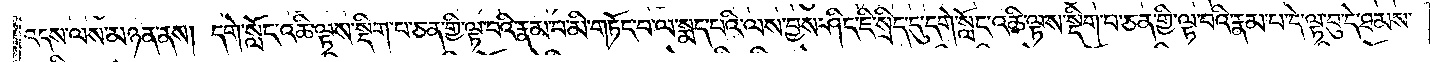འདས་ལས་མཉན་ནས། དགེ་སློང་འཆི་ལྟས་སྡིག་པ་ཅན་གྱི་ལྟ་བའི་རྣམ་པ་མི་གཏོང་བ་ལ་སྨད་པའི་ལས་བྱས་ཤིང་ཇི་སྲིད་དུ་དགེ་སློང་འཆི་ལྟས་སྡིག་པ་ཅན་གྱི་ལྟ་བའི་རྣམ་པ་དེ་ལྟ་བུ་དེ་ཐམས་
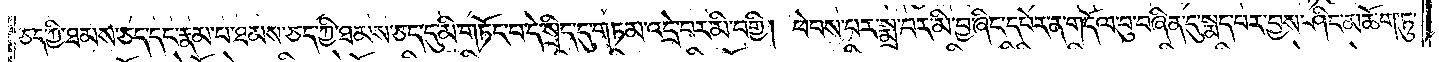ཅད་ཀྱི་ཐམས་ཅད་དང་རྣམ་པ་ཐམས་ཅད་ཀྱི་ཐམས་ཅད་དུ་མི་གཏོང་བ་དེ་སྲིད་དུ་གཏམ་འདྲེ་བར་མི་བགྱི། ཕེབས་པར་སྨྲ་བར་མི་བྱ་ཞིང་དཔེར་ན་གདོལ་བུ་བཞིན་དུ་སྨད་པར་བྱས་ཤིང་མཆོག་ཏུ་
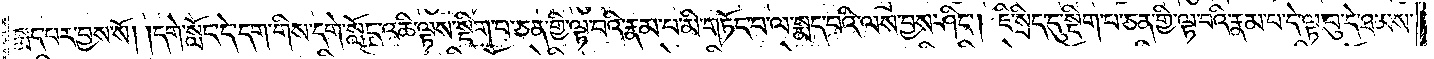སྨད་པར་བྱས་སོ། །དགེ་སློང་དེ་དག་གིས་དགེ་སློང་འཆི་ལྟས་སྡིག་པ་ཅན་གྱི་ལྟ་བའི་རྣམ་པ་མི་གཏོང་བ་ལ་སྨད་པའི་ལས་བྱས་ཤིང༌། ཇི་སྲིད་དུ་སྡིག་པ་ཅན་གྱི་ལྟ་བའི་རྣམ་པ་དེ་ལྟ་བུ་དེ་ཐམས་
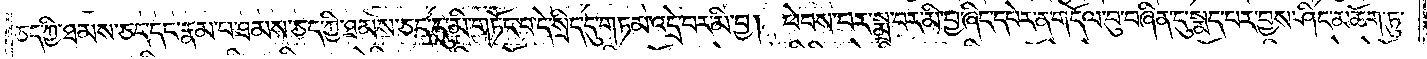ཅད་ཀྱི་ཐམས་ཅད་དང་རྣམ་པ་ཐམས་ཅད་ཀྱི་ཐམས་ཅད་དུ་མི་གཏོང་བ་དེ་སྲིད་དུ་གཏམ་འདྲེ་བར་མི་བྱ། ཕེབས་པར་སྨྲ་བར་མི་བྱ་ཞིང་དཔེར་ན་གདོལ་བུ་བཞིན་དུ་སྨད་པར་བྱས་ཤིང་མཆོག་ཏུ་
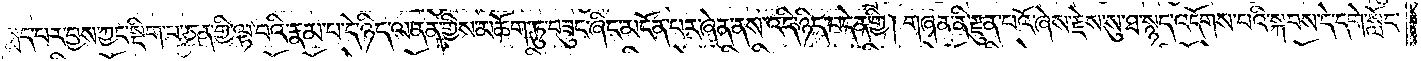སྨད་པར་བྱས་ཀྱང་སྡིག་པ་ཅན་གྱི་ལྟ་བའི་རྣམ་པ་དེ་ཉིད་ལ་ནན་གྱིས་མཆོག་ཏུ་བཟུང་ཞིང་མངོན་པར་ཞེན་ནས་འདི་ཉིད་བདེན་གྱི། གཞན་ནི་རྫུན་པའོ་ཞེས་རྗེས་སུ་ཐ་སྙད་འདོགས་པའི་སྐབས་དེ་དགེ་སློང་
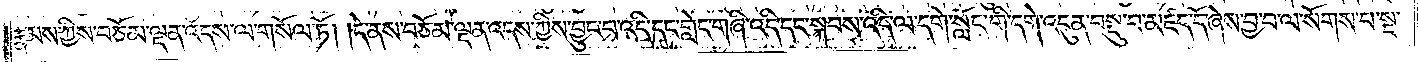རྣམས་ཀྱིས་བཅོམ་ལྡན་འདས་ལ་གསོལ་ཏོ། །དེ་ནས་བཅོམ་ལྡན་འདས་ཀྱིས་བྱུང་བ་འདི་དང་གླེང་གཞི་འདི་དང་སྐབས་འདི་ལ་དགེ་སློང་གི་དགེ་འདུན་བསྡུ་བ་མཛད་དོ་ཞེས་བྱ་བ་ལ་སོགས་པ་སྔ་
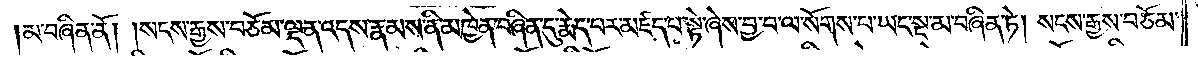མ་བཞིན་ནོ། །སངས་རྒྱས་བཅོམ་ལྡན་འདས་རྣམས་ནི་མཁྱེན་བཞིན་དུ་རྨེད་པར་མཛད་པ་སྟེ་ཞེས་བྱ་བ་ལ་སོགས་པ་ཡང་སྔ་མ་བཞིན་ཏེ། སངས་རྒྱས་བཅོམ་
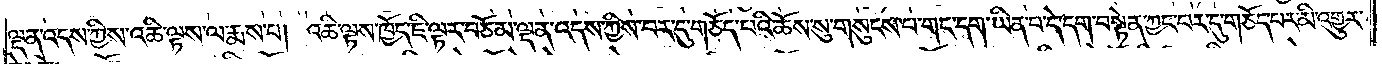ལྡན་འདས་ཀྱིས་འཆི་ལྟས་ལ་རྨས་པ། འཆི་ལྟས་ཁྱོད་ཇི་ལྟར་བཅོམ་ལྡན་འདས་ཀྱིས་བར་དུ་གཅོད་པའི་ཆོས་སུ་གསུངས་པ་གང་དག་ཡིན་པ་དེ་དག་བསྟེན་ཀྱང་བར་དུ་གཅོད་པར་མི་འགྱུར་
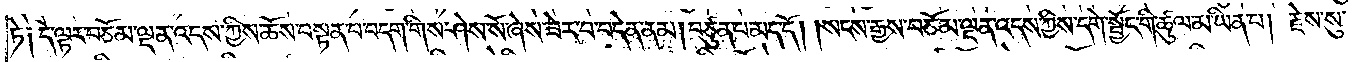ཏེ༑ དེ་ལྟར་བཅོམ་ལྡན་འདས་ཀྱིས་ཆོས་བསྟན་པ་བདག་གིས་ཤེས་སོ་ཞེས་ཟེར་བ་བདེན་ནམ། བཙུན་པ་མད་དོ། །སངས་རྒྱས་བཅོམ་ལྡན་འདས་ཀྱིས་དགེ་སྦྱོང་གི་ཚུལ་མ་ཡིན་པ། རྗེས་སུ་
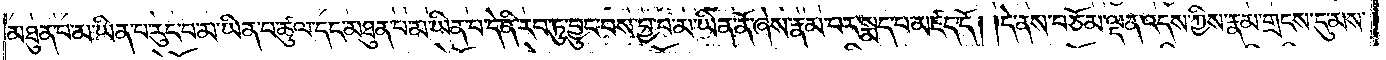མཐུན་པ་མ་ཡིན་པ་རུང་བ་མ་ཡིན་པ་ཚུལ་དང་མཐུན་པ་མ་ཡིན་པ་དེ་ནི་རབ་ཏུ་བྱུང་བས་བྱ་བ་མ་ཡིན་ནོ་ཞེས་རྣམ་པར་སྨད་པ་མཛད་དོ། །དེ་ནས་བཅོམ་ལྡན་འདས་ཀྱིས་རྣམ་གྲངས་དུ་མས་
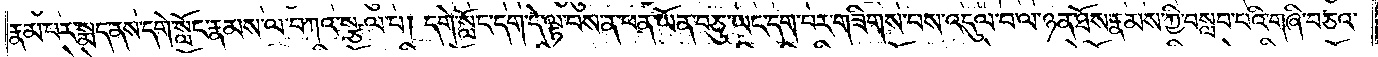རྣམ་པར་སྨད་ནས་དགེ་སློང་རྣམས་ལ་བཀའ་སྩལ་པ། དགེ་སློང་དག་དེ་ལྟ་བས་ན་ཕན་ཡོན་བཅུ་ཡང་དག་པར་གཟིགས་པས་འདུལ་བ་ལ་ཉན་ཐོས་རྣམས་ཀྱི་བསླབ་པའི་གཞི་བཅའ་
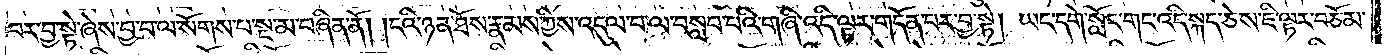བར་བྱ་སྟེ་ཞེས་བྱ་བ་ལ་སོགས་པ་སྔ་མ་བཞིན་ནོ། །ངའི་ཉན་ཐོས་རྣམས་ཀྱིས་འདུལ་བ་ལ་བསླབ་པའི་གཞི་འདི་ལྟར་གདོན་པར་བྱ་སྟེ། ཡང་དགེ་སློང་གང་འདི་སྐད་ཅེས་ཇི་ལྟར་བཅོམ་
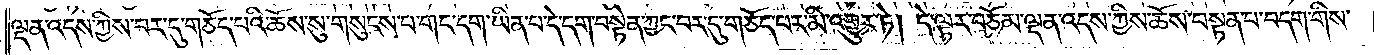ལྡན་འདས་ཀྱིས་བར་དུ་གཅོད་པའི་ཆོས་སུ་གསུངས་པ་གང་དག་ཡིན་པ་དེ་དག་བསྟེན་ཀྱང་བར་དུ་གཅོད་པར་མི་འགྱུར་ཏེ། དེ་ལྟར་བཅོམ་ལྡན་འདས་ཀྱིས་ཆོས་བསྟན་པ་བདག་གིས་
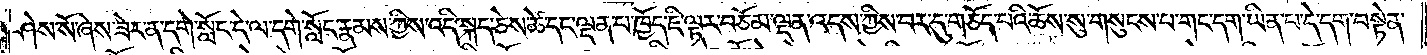ཤེས་སོ་ཞེས་ཟེར་ན་དགེ་སློང་དེ་ལ་དགེ་སློང་རྣམས་ཀྱིས་འདི་སྐད་ཅེས་ཚེ་དང་ལྡན་པ་ཁྱོད་ཇི་ལྟར་བཅོམ་ལྡན་འདས་ཀྱིས་བར་དུ་གཅོད་པའི་ཆོས་སུ་གསུངས་པ་གང་དག་ཡིན་པ་དེ་དག་བསྟེན་
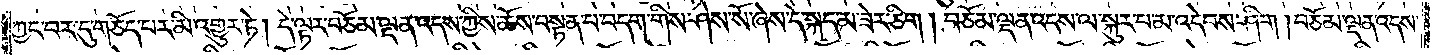ཀྱང་བར་དུ་གཅོད་པར་མི་འགྱུར་ཏེ། དེ་ལྟར་བཅོམ་ལྡན་འདས་ཀྱིས་ཆོས་བསྟན་པ་བདག་གིས་ཤེས་སོ་ཞེས་དེ་སྐད་མ་ཟེར་ཅིག །བཅོམ་ལྡན་འདས་ལ་སྐུར་པ་མ་འདེབས་ཤིག །བཅོམ་ལྡན་འདས་
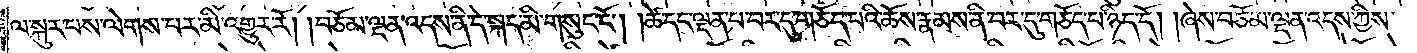ལ་སྐུར་པས་ལེགས་པར་མི་འགྱུར་རོ། །བཅོམ་ལྡན་འདས་ནི་དེ་སྐད་མི་གསུང་ངོ༌། །ཚེ་དང་ལྡན་པ་བར་དུ་གཅོད་པའི་ཆོས་རྣམས་ནི་བར་དུ་གཅོད་པ་ཉིད་དོ། །ཞེས་བཅོམ་ལྡན་འདས་ཀྱིས་
